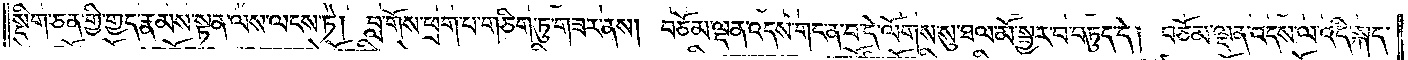སྡིག་ཅན་གྱི་གྱད་རྣམས་སྟན་ལས་ལངས་ཏེ། བླ་གོས་ཕྲག་པ་གཅིག་ཏུ་གཟར་ནས། བཅོམ་ལྡན་འདས་གང་ན་བ་དེ་ལོགས་སུ་ཐལ་མོ་སྦྱར་བ་བཏུད་དེ། བཅོམ་ལྡན་འདས་ལ་འདི་སྐད་
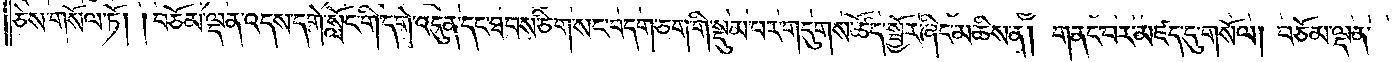ཅེས་གསོལ་ཏོ། །བཅོམ་ལྡན་འདས་དགེ་སློང་གི་དགེ་འདུན་དང་ཐབས་ཅིག་སང་བདག་ཅག་གི་སྡུམ་པར་གདུགས་ཚོད་སྦྱོར་ཞིང་མཆིས་ན། གནང་བར་མཛད་དུ་གསོལ། བཅོམ་ལྡན་
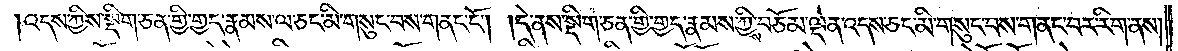འདས་ཀྱིས་སྡིག་ཅན་གྱི་གྱད་རྣམས་ལ་ཅང་མི་གསུང་བས་གནང་ངོ༌། །དེ་ནས་སྡིག་ཅན་གྱི་གྱད་རྣམས་ཀྱིས་བཅོམ་ལྡན་འདས་ཅང་མི་གསུང་བས་གནང་བར་རིག་ནས།
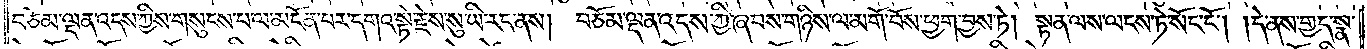བཅོམ་ལྡན་འདས་ཀྱིས་གསུངས་པ་ལ་མངོན་པར་དགའ་སྟེ་རྗེས་སུ་ཡི་རང་ནས། བཅོམ་ལྡན་འདས་ཀྱི་ཞབས་གཉིས་ལ་མགོ་བོས་ཕྱག་བྱས་ཏེ། སྟན་ལས་ལངས་ཏེ་སོང་ངོ༌། །དེ་ནས་གྱད་སྣ་
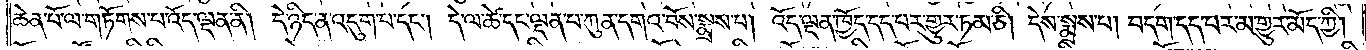ཆེན་པོ་ལ་གཏོགས་པ་འོད་ལྡན་ནི། དེ་ཉིད་ན་འདུག་པ་དང༌། དེ་ལ་ཚེ་དང་ལྡན་པ་ཀུན་དགའ་བོས་སྨྲས་པ། འོད་ལྡན་ཁྱོད་དད་པར་གྱུར་ཏམ་ཅི། དེས་སྨྲས་པ། བདག་དད་པར་མ་གྱུར་མོད་ཀྱི།
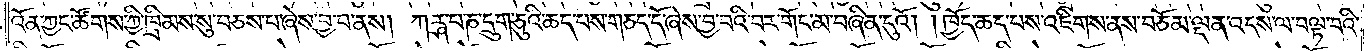འོན་ཀྱང་ཚོགས་ཀྱི་ཁྲིམས་སུ་བཅས་པ་ཞེས་བྱ་བ་ནས། ཀཪྴ་པ་ཎ་དྲུག་ཅུའི་ཆད་པས་གཅད་དོ་ཞེས་བྱ་བའི་བར་གོང་མ་བཞིན་དུའོ། ཁྱོད་ཆད་པས་འཇིགས་ནས་བཅོམ་ལྡན་འདས་ལ་བལྟ་བའི་
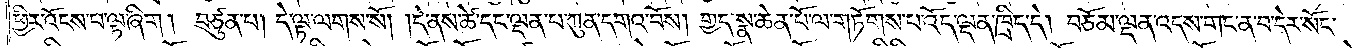ཕྱིར་འོངས་པ་ལྟ་ཞིག། བཙུན་པ། དེ་ལྟ་ལགས་སོ། །དེ་ནས་ཚེ་དང་ལྡན་པ་ཀུན་དགའ་བོས། གྱད་སྣ་ཆེན་པོ་ལ་གཏོགས་པ་འོད་ལྡན་ཁྲིད་དེ། བཅོམ་ལྡན་འདས་གང་ན་བ་དེར་སོང་
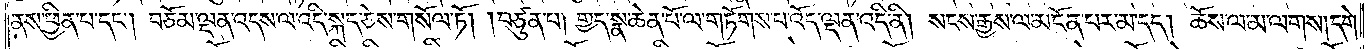ནས་ཕྱིན་པ་དང༌། བཅོམ་ལྡན་འདས་ལ་འདི་སྐད་ཅེས་གསོལ་ཏོ། །བཙུན་པ། གྱད་སྣ་ཆེན་པོ་ལ་གཏོགས་པ་འོད་ལྡན་འདི་ནི། སངས་རྒྱས་ལ་མངོན་པར་མ་དད། ཆོས་ལ་མ་ལགས། དགེ་
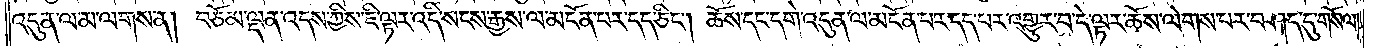འདུན་ལ་མ་ལགས་ན། བཅོམ་ལྡན་འདས་ཀྱིས་ཇི་ལྟར་འདི་སངས་རྒྱས་ལ་མངོན་པར་དད་ཅིང༌། ཆོས་དང་དགེ་འདུན་ལ་མངོན་པར་དད་པར་འགྱུར་པ་དེ་ལྟར་ཆོས་ལེགས་པར་བཤད་དུ་གསོལ།
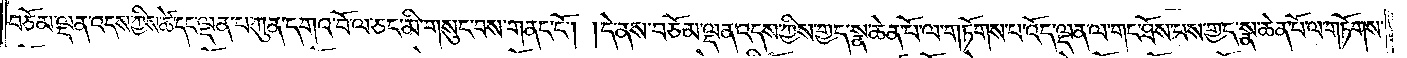བཅོམ་ལྡན་འདས་ཀྱིས་ཚེ་དང་ལྡན་པ་ཀུན་དགའ་བོ་ལ་ཅང་མི་གསུང་བས་གནང་ངོ༌། །དེ་ནས་བཅོམ་ལྡན་འདས་ཀྱིས་གྱད་སྣ་ཆེན་པོ་ལ་གཏོགས་པ་འོད་ལྡན་ལ་གང་ཐོས་པས་གྱད་སྣ་ཆེན་པོ་ལ་གཏོགས་
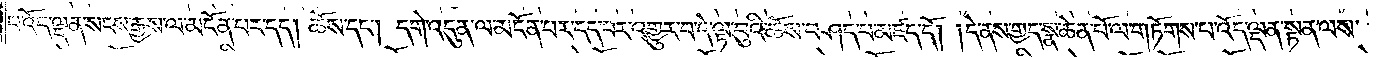པ་འོད་ལྡན་སངས་རྒྱས་ལ་མངོན་པར་དད། ཆོས་དང༌། དགེ་འདུན་ལ་མངོན་པར་དད་པར་འགྱུར་བ་དེ་ལྟ་བུའི་ཆོས་བཤད་པ་མཛད་དོ། །དེ་ནས་གྱད་སྣ་ཆེན་པོ་ལ་གཏོགས་པ་འོད་ལྡན་སྟན་ལས་
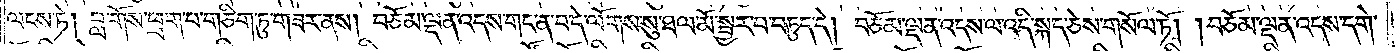ལངས་ཏེ། བླ་གོས་ཕྲག་པ་གཅིག་ཏུ་གཟར་ནས། བཅོམ་ལྡན་འདས་གང་ན་པ་དེ་ལོགས་སུ་ཐལ་མོ་སྦྱར་བ་བཏུད་དེ། བཅོམ་ལྡན་འདས་ལ་འདི་སྐད་དེས་གསོལ་ཏོ། །བཅོམ་ལྡན་འདས་དགེ་
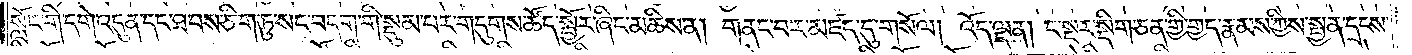སློང་གི་དགེ་འདུན་དང་ཐབས་ཅིག་ཏུ་སང་བདག་གི་སྡུམ་པར་གདུགས་ཚོད་སྦྱོར་ཞིང་མཆིས་ན། གནང་བར་མཛད་དུ་གསོལ། འོད་ལྡན། ང་སྔར་སྡིག་ཅན་གྱི་གྱད་རྣམས་ཀྱིས་སྤྱན་དྲངས་
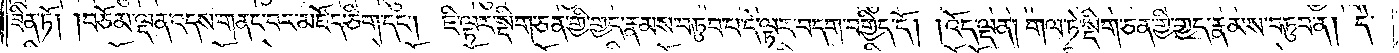ཟིན་ཏོ། །བཅོམ་ལྡན་འདས་གནང་བར་མཛོད་ཅིག་དང༌། ཇི་ལྟར་སྡིག་ཅན་གྱི་གྱད་རྣམས་བཏུབ་པ་དེ་ལྟར་བདག་བགྱིད་དོ། །འོད་ལྡན། གལ་ཏེ་སྡིག་ཅན་གྱི་གྱད་རྣམས་བཏུབ་ན། དེ་
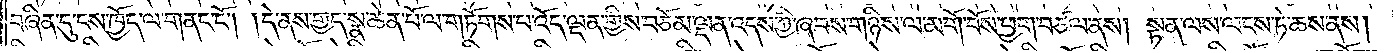བཞིན་དུ་ངས་ཁྱོད་ལ་གནང་ངོ༌། །དེ་ནས་གྱད་སྣ་ཆེན་པོ་ལ་གཏོགས་པ་འོད་ལྡན་གྱིས་བཅོམ་ལྡན་འདས་ཀྱི་ཞབས་གཉིས་ལ་མགོ་བོས་ཕྱག་བཙལ་ནས། སྟན་ལས་ལངས་ཏེ་ཆས་ནས།
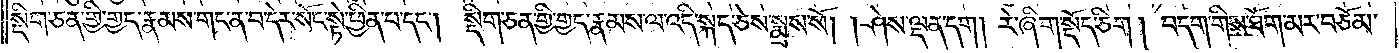སྡིག་ཅན་གྱི་གྱད་རྣམས་གང་ན་བ་དེར་སོང་སྟེ་ཕྱིན་པ་དང༌། སྡིག་ཅན་གྱི་གྱད་རྣམས་ལ་འདི་སྐད་ཅེས་སྨྲས་སོ། །ཤེས་ལྡན་དག། རེ་ཞིག་སྡོད་ཅིག། བདག་གིས་ཐོག་མར་བཅོམ་
